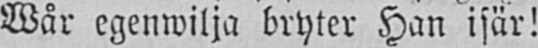Wår egenwilja bryter Han isär!
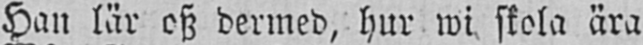Han lär osz dermed, hur wi skola ära
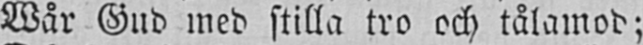Wår Gud med stilla tro och tålamod;
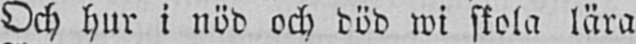Och hur i nöd och död wi skola lära
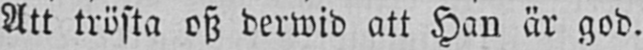Att trösta osz derwid att Han är god.
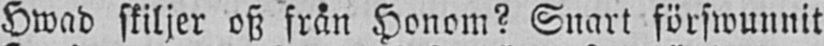Hwad skiljer osz från Honom? Snart förswunnit
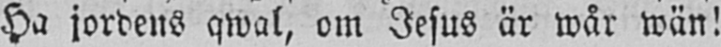Ha jordens qwal, om Jesus är wår wän!
